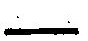—
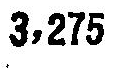3,275
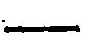—
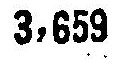3,659
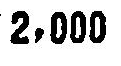2,000
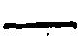—
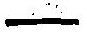—
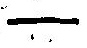—
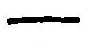—
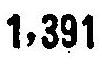1,391
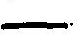—
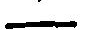—
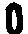0
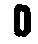0
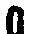0
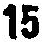15
